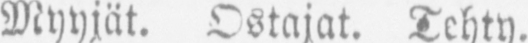Myyjät, ostajat. Tehty.
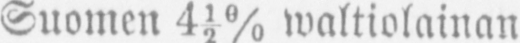Suomen 4½% waltiolainan
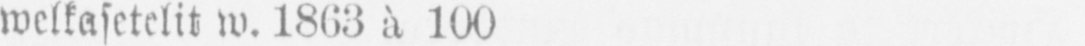welkasetelit w. 1863 ä 100
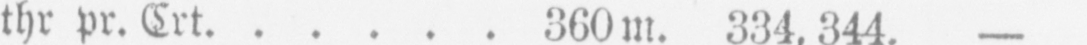thr pr. Crt. 360m. 334,344-
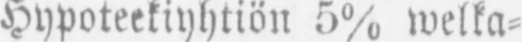Hypoteekiyhtiön 5% welka-
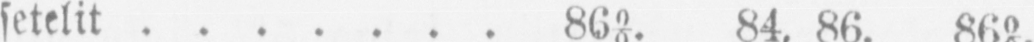setelit 86% 84, 86. 86%.
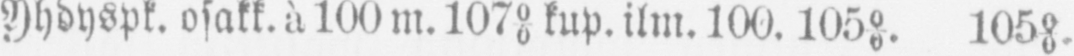Yhdyspk. osakk. ä 100m. 107% kup. ilm. 100.105%. 105%.
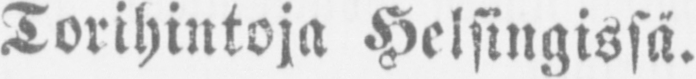Torihintoja Helsingissä.
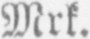Mrk.
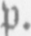p.
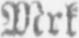Mrk
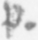p.
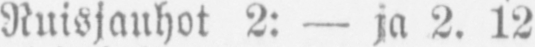Ruisjauhot 2: — ja 2. 12
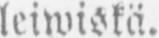leiwiskä.
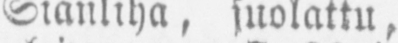Sianliha suolattu,
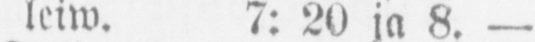leiw 7: 20 ja 8.—
